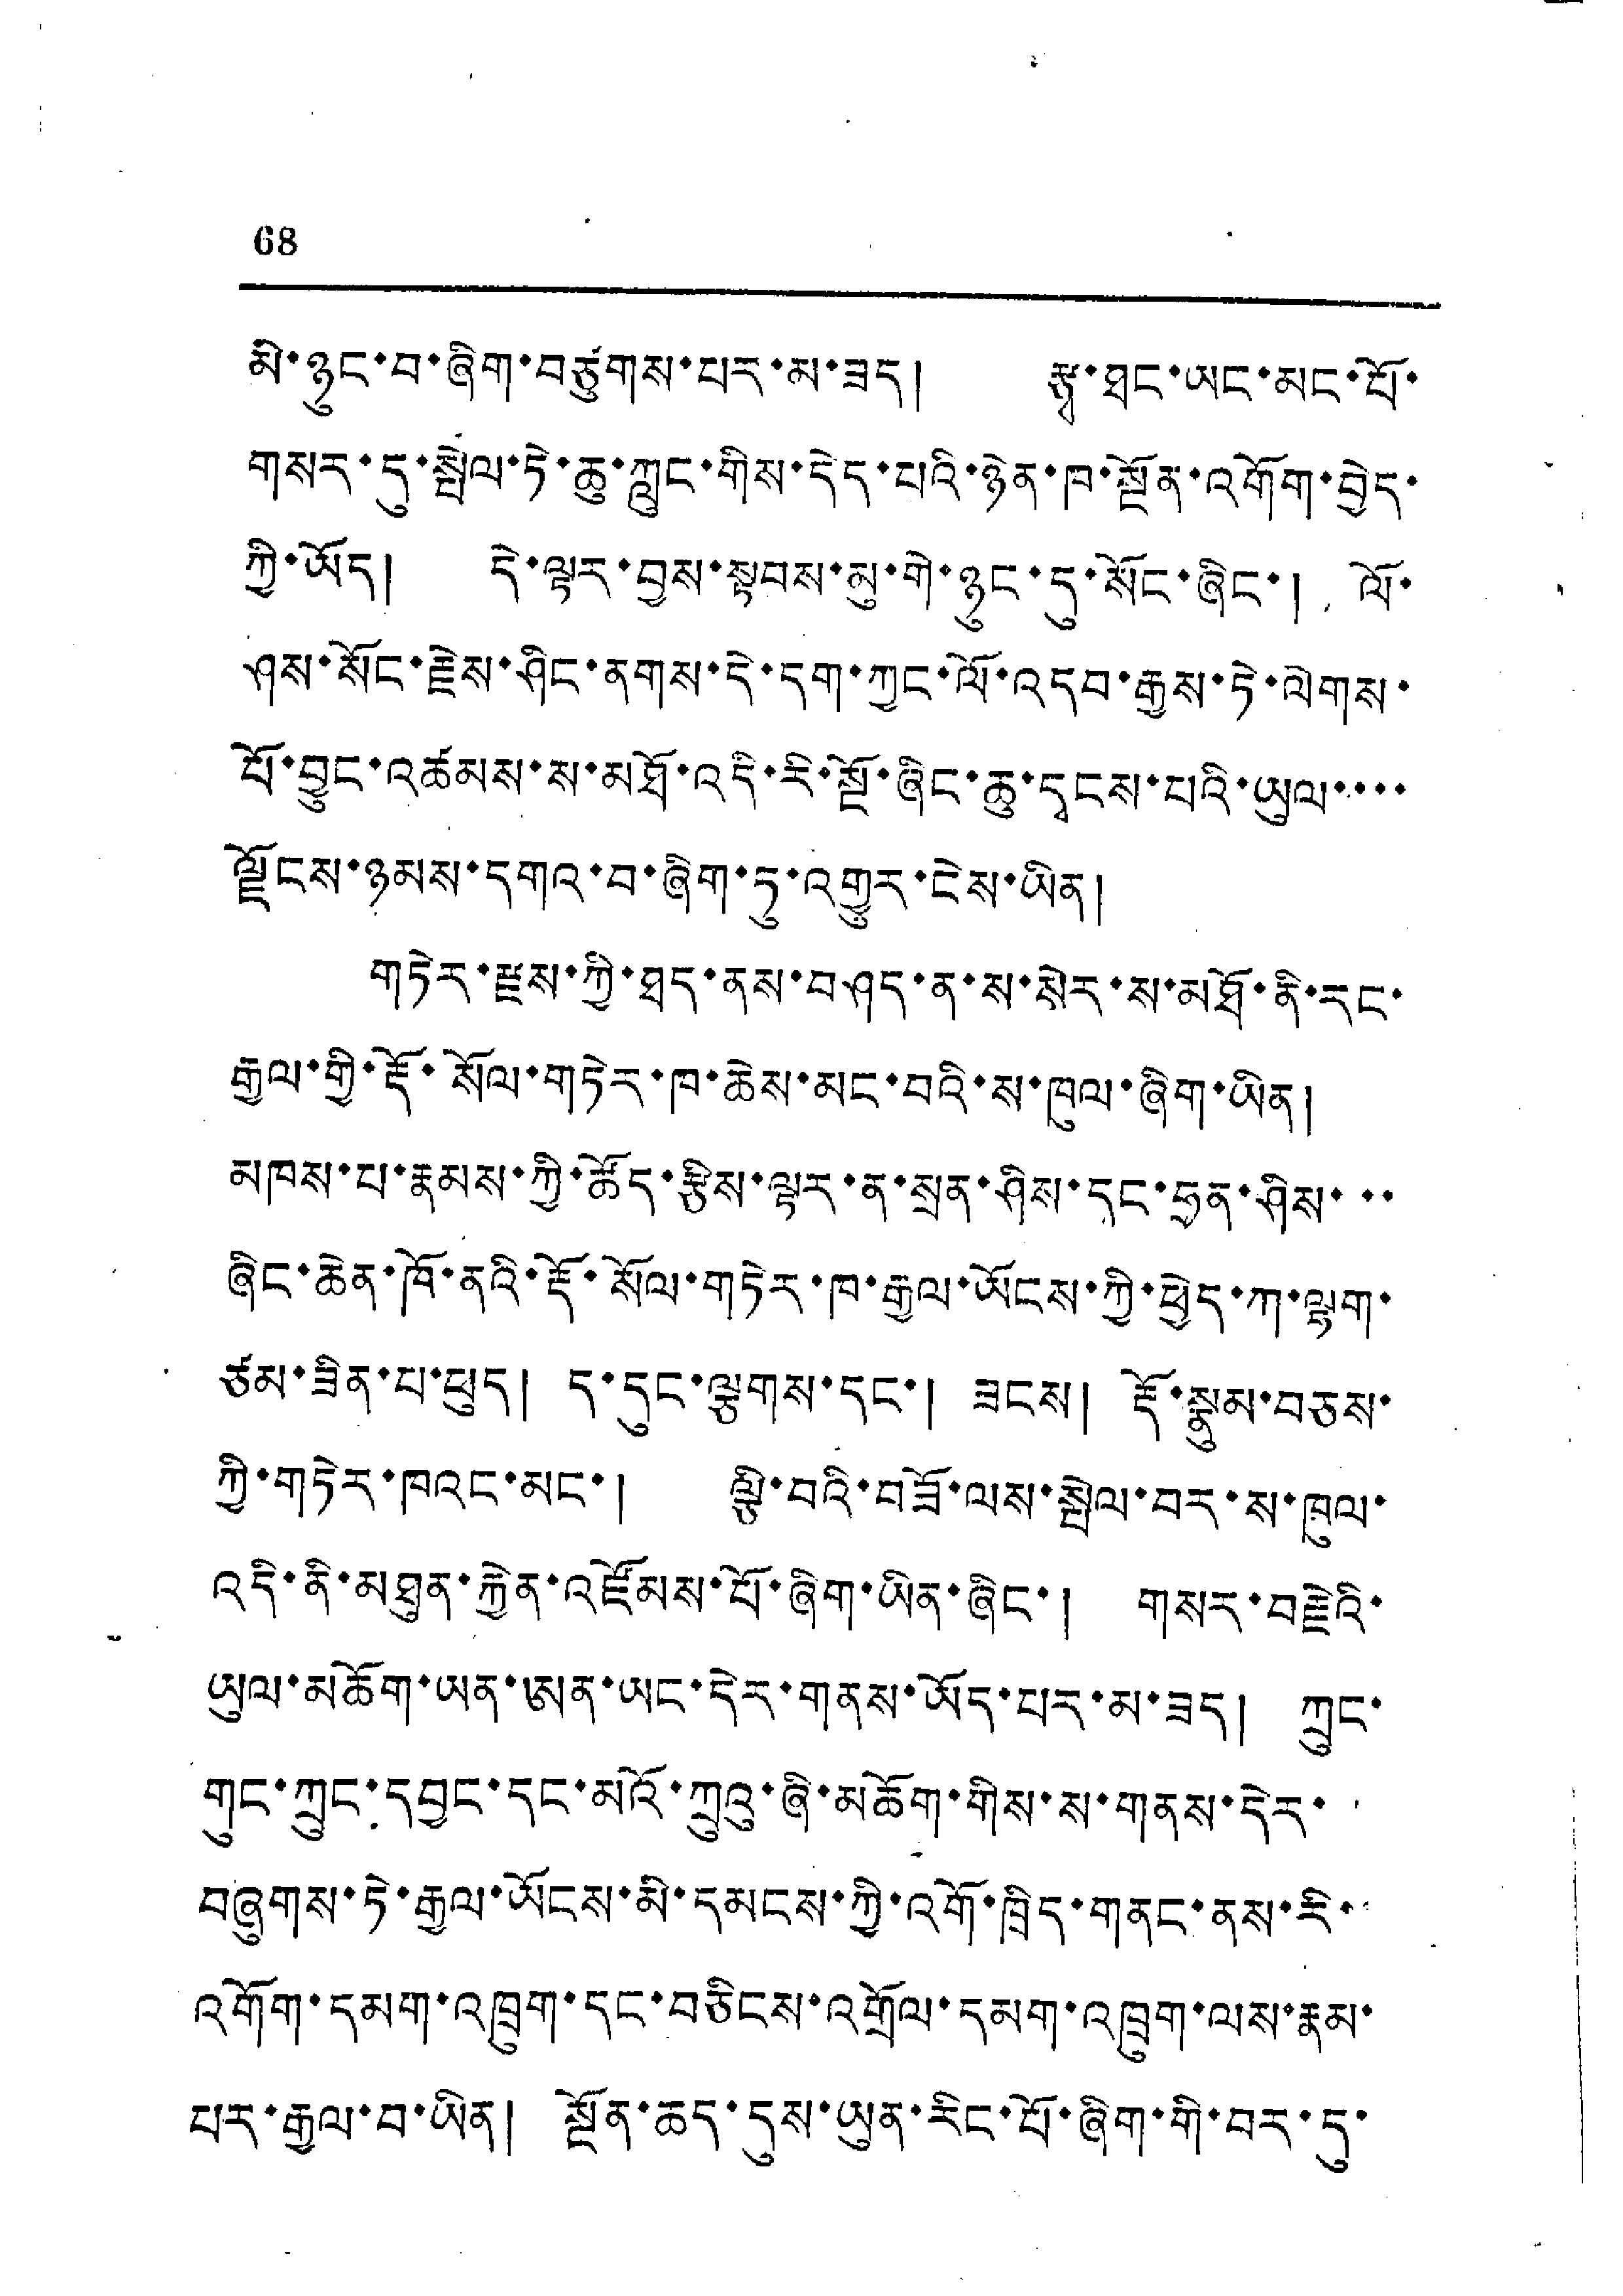68
མི་ཉུང་བ་ཞིག་བཙུགས་པར་མ་ཟད། རྩྭ་ཐང་ཡང་མང་པོ་
གསར་དུ་སྤེལ་ཏེ་ཆུ་ཀླུང་གིས་དེད་པའི་ཉེན་ཁ་སྔོན་འགོག་བྱེད་
ཀྱི་ཡོད། དེ་ལྟར་བྱས་སྟབས་མུ་གེ་ཉུང་དུ་སོང་ཞིང་། ལོ་
ཤས་སོང་རྗེས་ཤིང་ནགས་དེ་དག་ཀྱང་ལོ་འདབ་རྒྱས་ཏེ་ལེགས་
པོ་བྱུང་འཚམས་ས་མཐོ་འདི་རི་སྔོ་ཞིང་ཆུ་དྭངས་པའི་ཡུལ་་་་
ལྗོངས་ཉམས་དགའ་བ་ཞིག་ཏུ་འགྱུར་ངེས་ཡིན།
གཏེར་རྫས་ཀྱི་ཐད་ནས་བཤད་ན་ས་སེར་ས་མཐོ་ནི་རང་
རྒྱལ་གྱི་རྡོ་སོལ་གཏེར་ཁ་ཆེས་མང་བའི་ས་ཁུལ་ཞིག་ཡིན།
མཁས་པ་རྣམས་ཀྱི་ཚོད་རྩིས་ལྟར་ན་སྲན་ཤིས་དང་ཧྲན་ཤིས་་་
ཞིང་ཆེན་ཁོ་ནའི་རྡོ་སོལ་གཏེར་ཁ་རྒྱལ་ཡོངས་ཀྱི་ཕྱེད་ཀ་ལྷག་
ཙམ་ཟིན་པ་ཕུད། ད་དུང་ལྕགས་དང་། ཟངས། རྡོ་སྣུམ་བཅས་
ཀྱི་གཏེར་ཁའང་མང་། ལྕི་བའི་བཟོ་ལས་སྤེལ་བར་ས་ཁུལ་
འདི་ནི་མཐུན་རྐྱེན་འཛོམས་པོ་ཞིག་ཡིན་ཞིང་། གསར་བརྗེའི་
ཡུལ་མཆོག་ཡན་ཨན་ཡང་དེར་གནས་ཡོད་པར་མ་ཟད། ཀྲུང་
གུང་ཀྲུང་དབྱང་དང་མའོ་ཀྲུའུ་ཞི་མཆོག་གིས་ས་གནས་དེར་
བཞུགས་ཏེ་རྒྱལ་ཡོངས་མི་དམངས་ཀྱི་འགོ་ཁྲིད་གནང་ནས་རི་་
འགོག་དམག་འཁྲུག་དང་བཅིངས་འགྲོལ་དམག་འཁྲུག་ལས་རྣམ་
པར་རྒྱལ་བ་ཡིན། སྔོན་ཆད་དུས་ཡུན་རིང་པོ་ཞིག་གི་བར་དུ་
